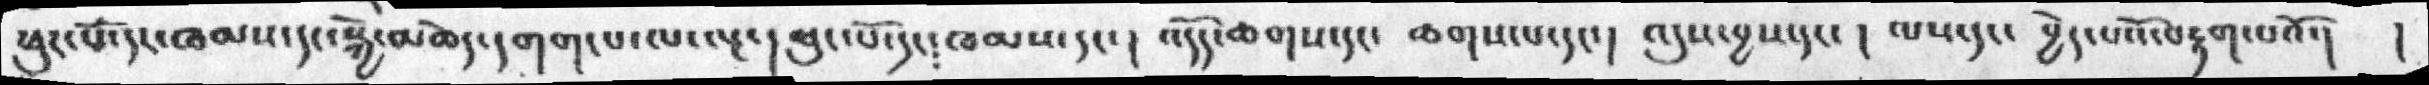ཕུང་པོ་དང་ཁམས་དང་སྐྱེ་མཆེད་དགག་པ་ལ་ལྔ་། ཕུང་པོ་དང༴ཁམས་དང་། འདོད་ཆགསདང་ ཆགས་པ་དང་།  འདུས་བྱས་དང་།  ལས་དང་ བྱེད་པའོ་བརྟག་པའོ་། །
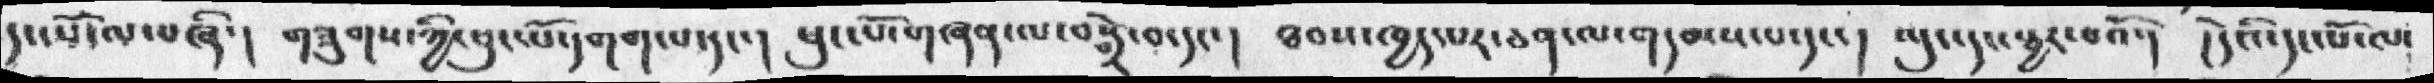དང་པོ་ལ་བཞི་། གཟུགས་ཀྱི་ཕུང་པོ་དགག་པ་དང་།  ཕུང་པོ་གཞན་ལ་བསྒྲེ་བ་དང་།  ཐབས་ཁྱད་པར་ཅན་ལ་གདམས་པ་དང་།  ལུང་དང་སྦྱར་བའོ་།  །དེའི་དང་པོ་ལ་
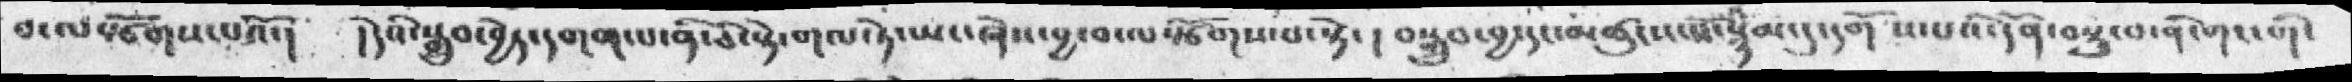བ་ལསྩོགས་པའོ་།  །དེའི་སྒྲུ་བྱེད་དགག་པ་ནི་ཅི་སྟེ་གལ་ཏེ་ཡང་ཞེས་བྱ་བ་ལསྩོགས་པ་སྟེ་། བསྒྲུབ་བྱ་དང་མཚུངས་སོ་སྙམ་དུ་དགོས་པའི་དོན་བསྡུ་བ་ནི་གང་གི་
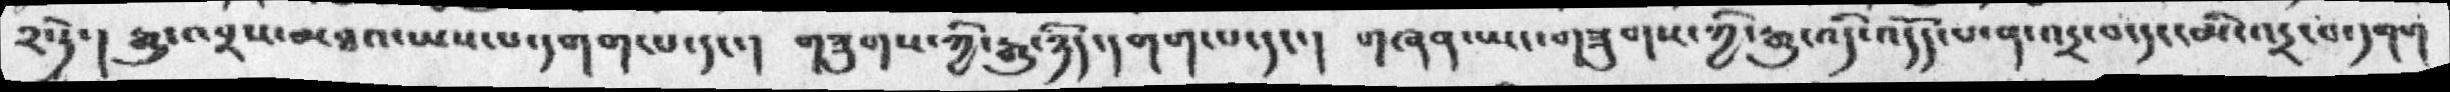༢་ཏེ་།  རྒྱུ་འབྲས་མཐའ་ཡས་པ་དགག་པ་དང་།  གཟུགས་ཀྱི་རྒྱུ་ཉིད་དགག་པ་དང་།  གཞན་ཡང་གཟུགས་ཀྱི་རྒྱུ་འདི་འདོད་པ་ན་འདྲ་བ་དང་མི་འདྲ་བ་དགག
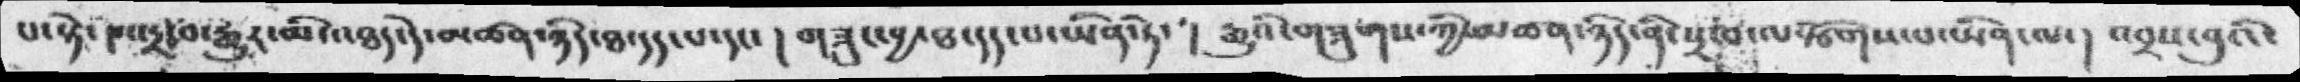པ་སྟེ་། འདྲ་བ་རྒྱུར་མི་འཐད་དེ་མཚན་ཉིད་ཐ་དད་པ་དང་། གཟུང་བྱ་ཐ་དད་པ་ཡིན་ཏེ་། རྒྱུའི་གཟུགས་ཀྱི་མཚན་ཉིད་ནི་སྲ་བ་ལསྩོགས་པ་ཡིན་ལ་།  འབྲས་བུའི་
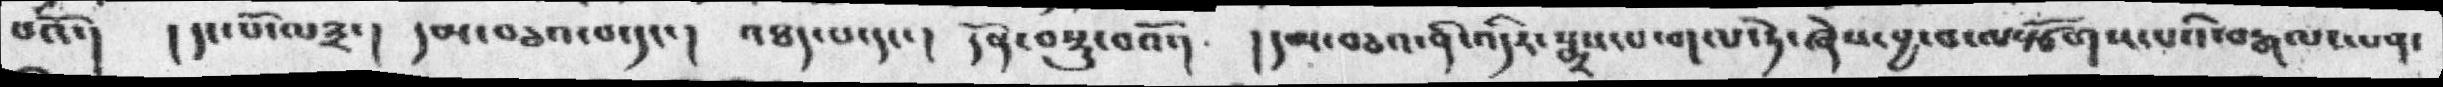པའོ་།  །དང་པོ་ལ༣་།  དམ་བཅའ་བ་དང་།  འཐད་པ་དང་།  དོན་བསྡུ་བའོ་།  །དམ་བཅའ་ནི་འདིར་སྨྲས་པ་གལ་ཏེ་ཞེས་བྱ་བ་ལསྩོགས་པའི་བརྒལ་ལན་
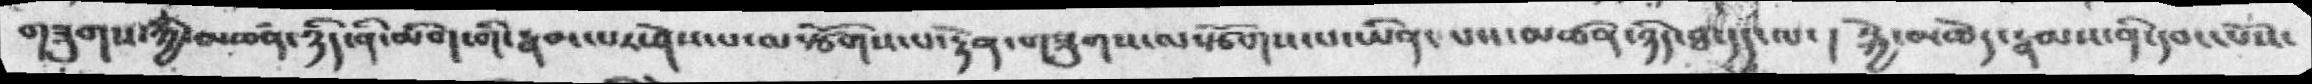གཟུགས་ཀྱི་མཚན་ཉིད་ནི་མིག་གི་རྣམ་པར་ཤེས་པ་ལསྩོགས་པ་རྟེན་གཟུགས་ལསྩོགས་པ་ཡིན་པས་མཚན་ཉིད་ཐ་དད་ལ་།  སྐྱེ་མཆེད་རྣམས་ནི་དབང་པོས་
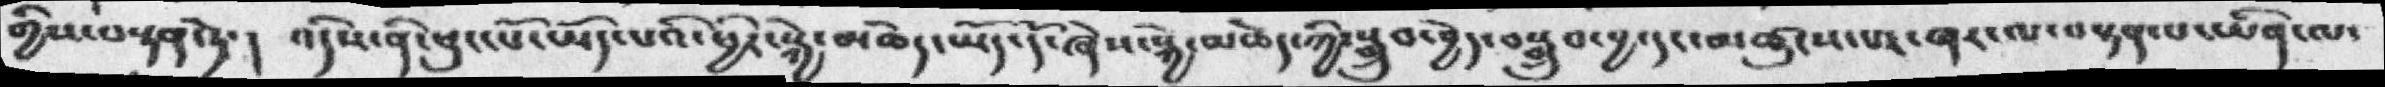གྱིས་བསྟན་ཏེ་།  འདིས་ནི་ཕུང་པོ་ཡོད་པའི་ཕྱིར་སྐྱེ་མཆེད་ཡོད་དོ་ཞེས་སྐྱེ་མཆེད་ཀྱི་སྒྲུབ་བྱེད་བསྒྲུབ་བྱ་དང་མཚུངས་པར་ཞར་ལ་བསྟན་པ་ཡིན་ལ་
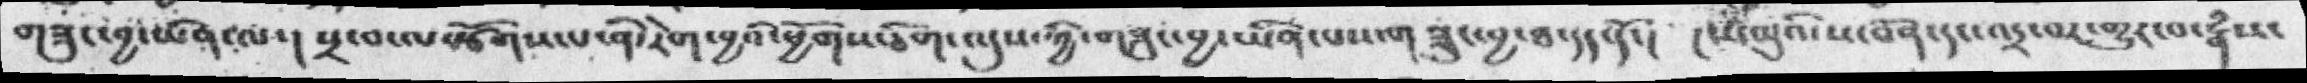གཟུང་བྱ་ཡིན་ལ་། སྲ་བ་ལསྩོགས་པ་ནི་རེག་བྱའི་ཕྱོགས་ཅིག་འདུས་ཀྱི་གཟུང་བྱ་ཡིན་པས་གཟུང་བྱ་ཐ་དད་དོ་།  །ས་ལུའི་ས་བོན་དང་འདྲ་བར་གྱུར་བ་རྣཾས་
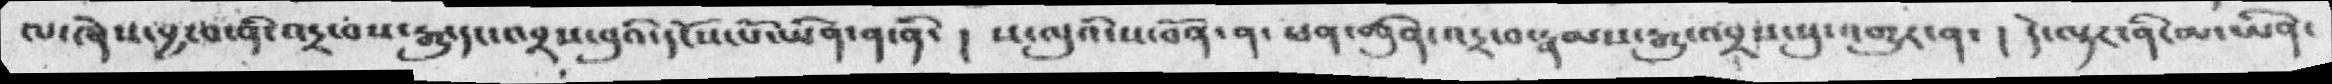ལ་ཞེས་བྱ་བ་ནི་འདྲ་བས་རྒྱུ་དང་འབྲས་བུའི་དངོས་པོ་ཡིན་ན་ནི་། ས་ལུའི་ས་བོན་ན་ཕན་ཚུན་འདྲ་བ་རྣམས་རྒྱུ་འབྲས་སུ་འགྱུར་ན་། དེ་ལྟར་ནི་མ་ཡིན་
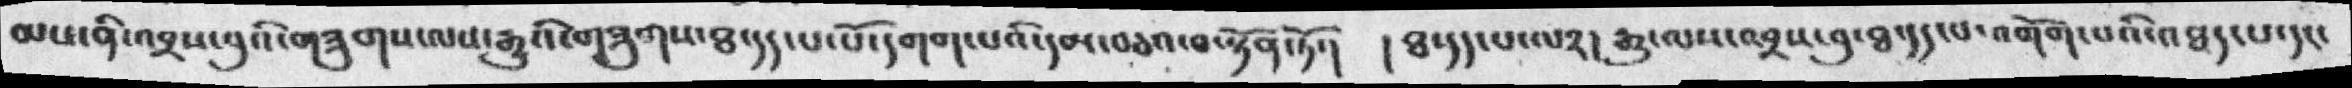མས་ནི་འབྲས་བུའི་གཟུགས་ལས་རྒྱུའི་གཟུགས་ཐ་དད་པ་པོ་དགག་པའི་དམ་བཅའ་བ་སྟོན་ཏོ་།  །ཐ་དད་པ་ལ༢། རྒྱུ་ལས་འབྲས་བུ་ཐ་དད་པ་འགོག་པའི་འཐད་པ་དང་
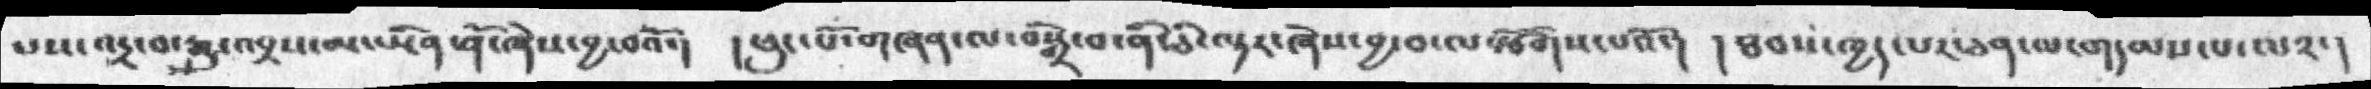པས་འདྲ་བ་རྒྱུ་འབྲས་མ་ཡིན་ནོ་ཞེས་བྱ་བའོ་།  །ཕུང་པོ་གཞན་ལ་བསྒྲེ་བ་ནི་ཅི་ལྟར་ཞེས་བྱ་བ་ལསྩོགས་པའོ་།    །ཐབས་ཁྱད་པར་ཅན་ལ་གདམས་པ་ལ༢་།
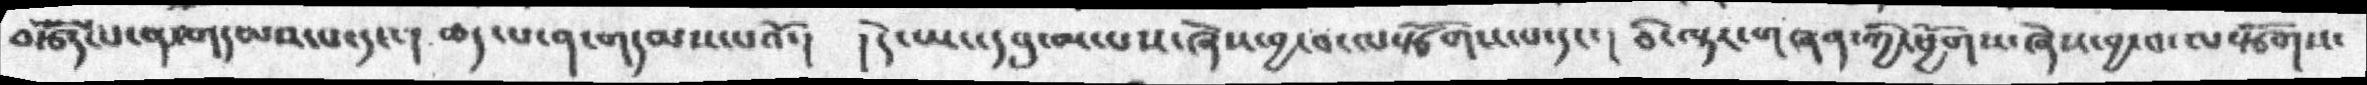བརྩོད་པ་ན་གདམས་པ་དང་། ཆད་པ་ན་གདམས་པའོ་།   །དེ་ཡང་དབུ་མ་པས་ཞེས་བྱ་བ་ལསྩོགས་པ་དང་ ། ཅི་ལྟར་གཞན་ཀྱི་ཕྱོགས་ཞེས་བྱ་བ་ལསྩོགས་
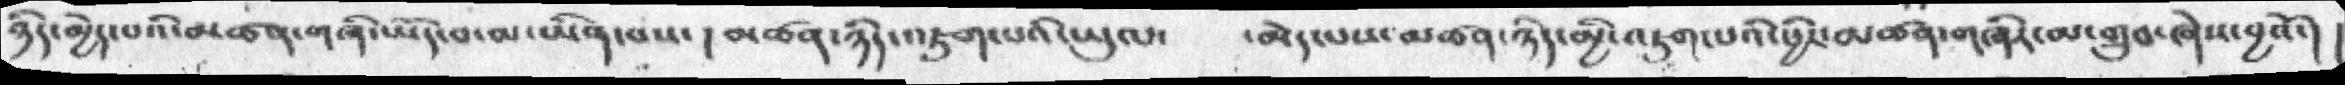ཉིད་མྱེད་པའི་མཚན་གཞི་ཡོད་བ་མ་ཡིན་པས་ ། མཚན་ཉིད་འཇུག་པའི་ཡུལ་   མེད་པས་མཚན་ཉིད་མྱི་འཇུག་པའི་ཕྱིར་མཚན་གཞིར་མ་གྲུབ་ཞེས་བྱའོ་། །
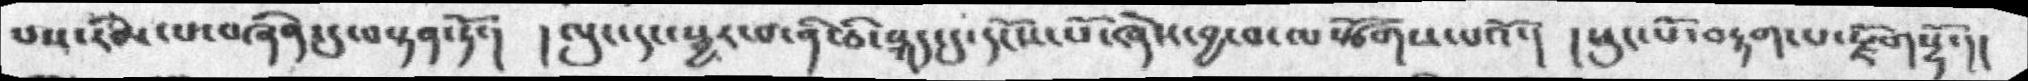པས་རིམ་པ་བཞིན་དུ་བསྟན་ཏོ་།  །ལུས་དང་སྦྱར་བ་ནི་ཅི་སྐད་དུ་དངོས་པོ་ཞེས་བྱ་བ་ལསྩོགས་པའོ་།   །ཕུང་པོ་བརྟག་པ་རྗོགསྟོ་།།
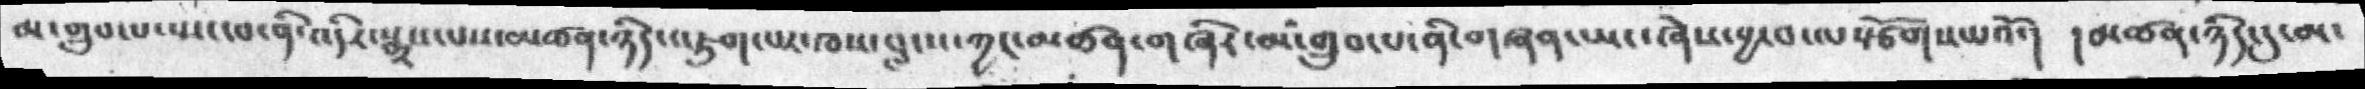མ་གྲུབ་པ་སྤང་བ་ནི་འདིར་སྨྲས་པས་མཚན་ཉིད་འཇུག་པར་ཁས་བླངས་ཀྱང་མཚན་གཞིར་མཾ་གྲུབ་པ་ནི་གཞན་ཡང་ཞེས་བྱ་བ་ལསྩོགས་པའོ་།    །མཚན་ཉིད་དུ་མ་
